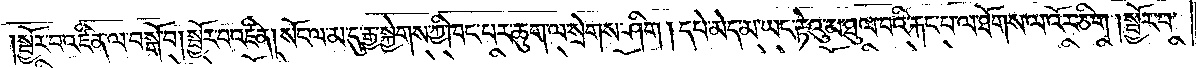སྦྱོར་བ་འཛིན་ལ་བསྒོ་བ། སྦྱོར་བ་འཛིན། སོང་ལ་མ་དུ་རྒྱ་སྐྱེགས་ཀྱི་ཁང་པར་ཆུག་ལ་སྲེགས་ཤིག །དཔེ་མེད་མ་ཡང་རྟེའུ་མ་ཐུལ་བའི་རྐང་པ་ལ་ཐོགས་ལ་འོར་ཅིག །སྦྱོར་བ་
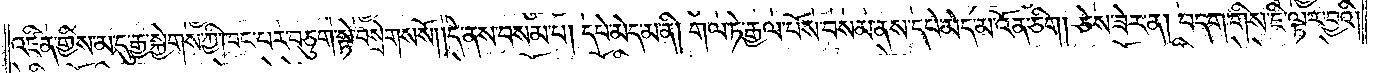འཛིན་གྱིས་མ་དུ་རྒྱ་སྐྱེགས་ཀྱི་ཁང་པར་བཅུག་སྟེ་བསྲེགས་སོ། །དེ་ནས་བསམ་པ། དཔེ་མེད་མ་ནི། གལ་ཏེ་རྒྱལ་པོས་བསམ་ནས་དཔེ་མེད་མ་འོན་ཅིག །ཅེས་ཟེར་ན། བདག་གིས་ཇི་ལྟར་བྱའི།
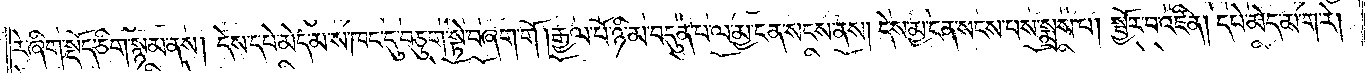རེ་ཞིག་སྡོད་ཅིག་སྙམ་ནས། དེས་དཔེ་མེད་མ་ས་ཁང་དུ་བཅུག་སྟེ་བཞག་གོ །རྒྱལ་པོ་ཉི་མ་བདུན་པ་ལ་མྱ་ངན་སངས་ནས། དེས་མྱ་ངན་སངས་པས་སྨྲས་པ། སྦྱོར་བ་འཛིན། དཔེ་མེད་མ་ག་རེ།
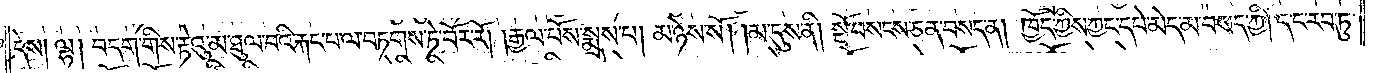དེས། ལྷ། བདག་གིས་རྟེའུ་མ་ཐུལ་བའི་རྐང་པ་ལ་བཏགས་ཏེ་བོར་རོ། །རྒྱལ་པོས་སྨྲས་པ། མ་ཉེས་སོ། །མ་དུས་ནི། སྔོ་བསངས་ཅན་བསད་ན། ཁྱོད་ཀྱིས་ཀྱང་དཔེ་མེད་མ་བསད་ཀྱི། ད་ང་རབ་ཏུ་
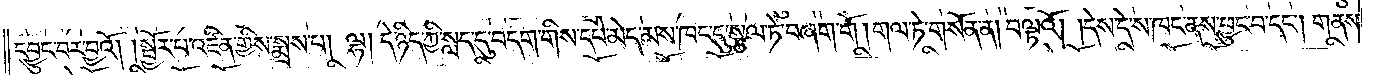དབྱུང་བར་བྱའོ། །སྦྱོར་བ་འཛིན་གྱིས་སྨྲས་པ། ལྷ། དེ་ཉིད་ཀྱི་སླད་དུ་བདག་གིས་དཔེ་མེད་མས་ཁང་དུ་སྩལ་ཏེ་བཞག་གོ །གལ་ཏེ་གསོན་ན། བལྟའོ། །དེས་དེ་ས་ཁང་ནས་ཕྱུང་བ་དང༌། གནས་
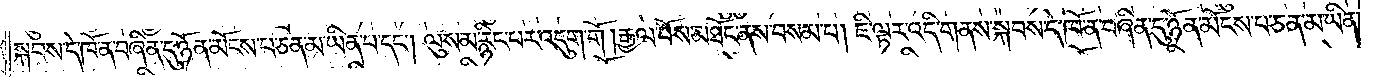སྐབས་དེ་ཁོ་ན་བཞིན་དུ་ཉོན་མོངས་པ་ཅན་མ་ཡིན་པ་དང༌། ལུས་མ་རྙིང་པར་འདུག་གོ །རྒྱལ་པོས་མཐོང་ནས་བསམ་པ། ཇི་ལྟར་འདི་གནས་སྐབས་དེ་ཁོ་ན་བཞིན་དུ་ཉོན་མོངས་པ་ཅན་མ་ཡིན་
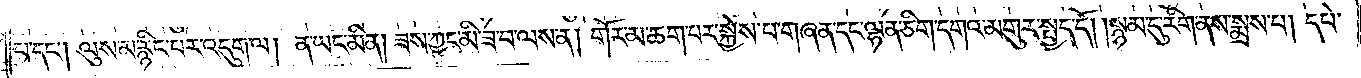པ་དང༌། ལུས་མ་རྙིང་པར་འདུག་ལ། ན་ཡང་མིན། ཟས་ཀྱང་མི་ཟ་བ་ལས་ན། གོར་མ་ཆག་པར་སྐྱེས་པ་གཞན་དང་ལྷན་ཅིག་དགའ་མགུར་སྤྱད་དོ། །སྙམ་དུ་རིག་ནས་སྨྲས་པ། དཔེ་
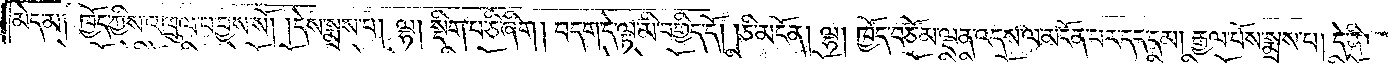མེད་མ། ཁྱོད་ཀྱིས་འཁྲུལ་པ་བྱས་སོ། །དེས་སྨྲས་པ། ལྷ། སྡིག་པ་ཅི་ཞིག། བདག་དེ་ལྟ་མི་བགྱིད་དོ། །ཅི་མངོན། ལྷ། ཁྱོད་བཅོམ་ལྡན་འདས་ལ་མངོན་པར་དད་དམ། རྒྱལ་པོས་སྨྲས་པ། དེ་ནི།
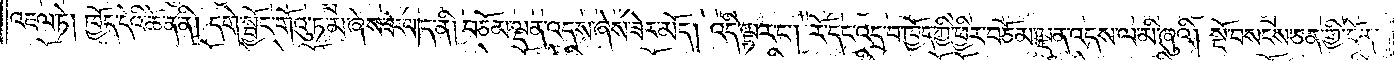འཇལ་ཏེ། ཁྱོད་དེའི་ཚེ་ན་ནི། དགེ་སྦྱོང་གོའུ་ཏ་མ་ཞེས་ཟེར་ལ། ད་ནི། བཅོམ་ལྡན་འདས་ཞེས་ཟེར་མོད། འདི་ལྟར་ང༌། རོ་དང་འདྲ་བ་ཁྱོད་ཀྱི་ཕྱིར་བཅོམ་ལྡན་འདས་ལ་མི་ཞུའི། སྔོ་བསངས་ཅན་གྱི་དོན་
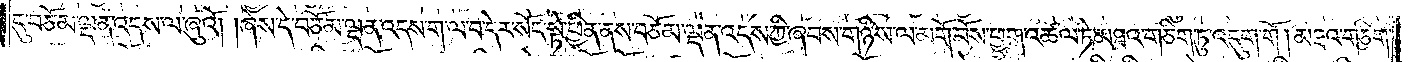དུ་བཅོམ་ལྡན་འདས་ལ་ཞུའོ། །ཞེས་དེ་བཅོམ་ལྡན་འདས་ག་ལ་བ་དེར་སོང་སྟེ་ཕྱིན་ནས་བཅོམ་ལྡན་འདས་ཀྱི་ཞབས་གཉིས་ལ་མགོ་བོས་ཕྱག་འཚལ་ཏེ་མཐའ་གཅིག་ཏུ་འདུག་གོ །མཐའ་གཅིག་
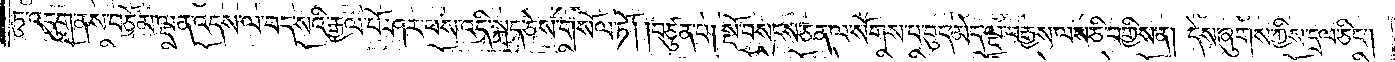ཏུ་འདུག་ནས་བཅོམ་ལྡན་འདས་ལ་བད་སའི་རྒྱལ་པོ་ཤར་པས་འདི་སྐད་ཅེས་གསོལ་ཏོ། །བཙུན་པ། སྔོ་བསངས་ཅན་ལ་སོགས་པ་བུད་མེད་ལྔ་བརྒྱས་ལས་ཅི་བགྱིས་ན། དེས་ཞུགས་ཀྱིས་དྲལ་ཅིང༌།
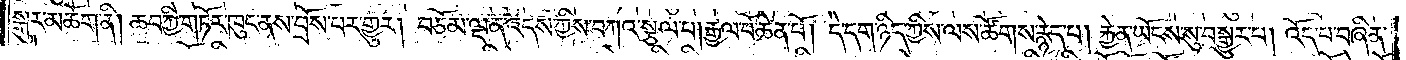སྒུར་མཆོག་ནི། ཆབ་ཀྱི་གཏོར་ཁུང་ནས་བྲོས་པར་གྱུར། བཅོམ་ལྡན་འདས་ཀྱིས་བཀའ་སྩལ་པ། རྒྱལ་པོ་ཆེན་པོ། དེ་དག་ཉིད་ཀྱིས་ལས་ཚོགས་རྙེད་པ། རྐྱེན་ཡོངས་སུ་བསྒྱུར་པ། འོད་པ་བཞིན་
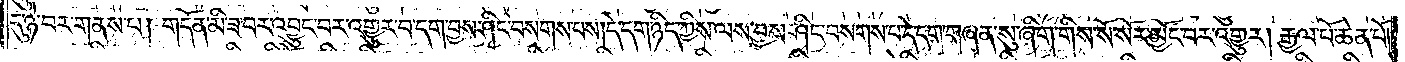དུ་ཉེ་བར་གནས་པ། གདོན་མི་ཟ་བར་འབྱུང་བར་འགྱུར་བ་དག་བྱས་ཤིང་བསགས་པས། དེ་དག་ཉིད་ཀྱིས་ལས་བྱས་ཤིང་བསགས་པ་དེ་དག་གཞན་སུ་ཞིག་གིས་སོ་སོར་མྱོང་བར་འགྱུར། རྒྱལ་པོ་ཆེན་པོ།
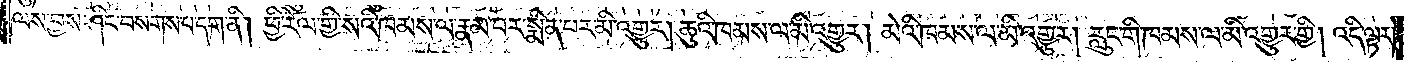ལས་བྱས་ཤིང་བསགས་པ་དག་ནི། ཕྱི་རོལ་གྱི་སའི་ཁམས་ལ་རྣམ་པར་སྨིན་པར་མི་འགྱུར། ཆུའི་ཁམས་ལ་མི་འགྱུར། མེའི་ཁམས་ལ་མི་འགྱུར། རླུང་གི་ཁམས་ལ་མི་འགྱུར་གྱི། འདི་ལྟར་
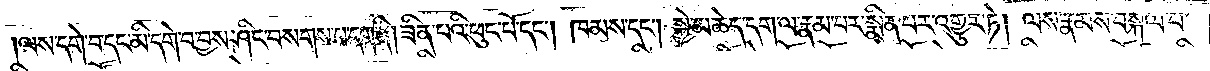ལས་དགེ་བ་དང་མི་དགེ་བ་བྱས་ཤིང་བསགས་པ་དག་ནི། ཟིན་པའི་ཕུང་པོ་དང༌། ཁམས་དང༌། སྐྱེ་མཆེད་དག་ལ་རྣམ་པར་སྨིན་པར་འགྱུར་ཏེ། ལས་རྣམས་བསྐལ་པ་
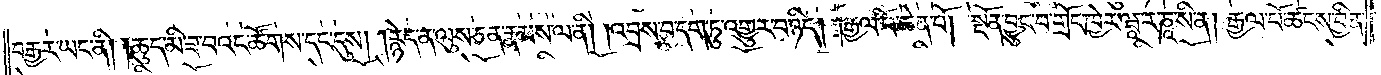བརྒྱར་ཡང་ནི། །ཆུད་མི་ཟ་བའང་ཚོགས་དང་དུས། །རྙེད་ན་ལུས་ཅན་རྣམས་ལ་ནི། །འབྲས་བུ་དག་ཏུ་འགྱུར་བ་ཉིད། །རྒྱལ་པོ་ཆེན་པོ། སྔོན་བྱུང་བ་གྲོང་ཁྱེར་ཝཱ་ར་ཎཱ་སི་ན། རྒྱལ་པོ་ཚངས་བྱིན་
